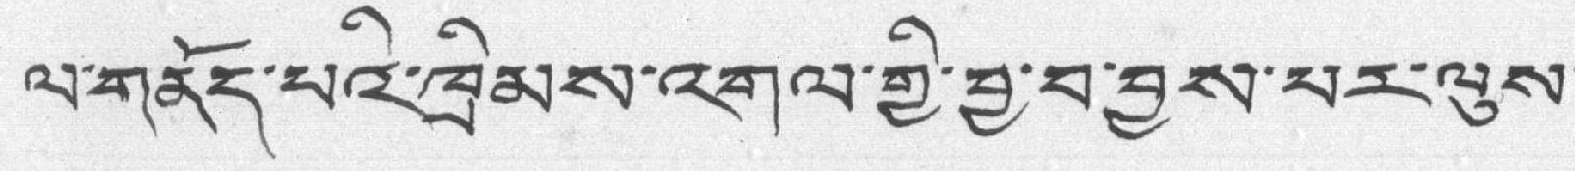ལ་གནོད་པའི་ཁྲིམས་འགལ་གྱི་བྱ་བ་བྱས་པར་ལུས་
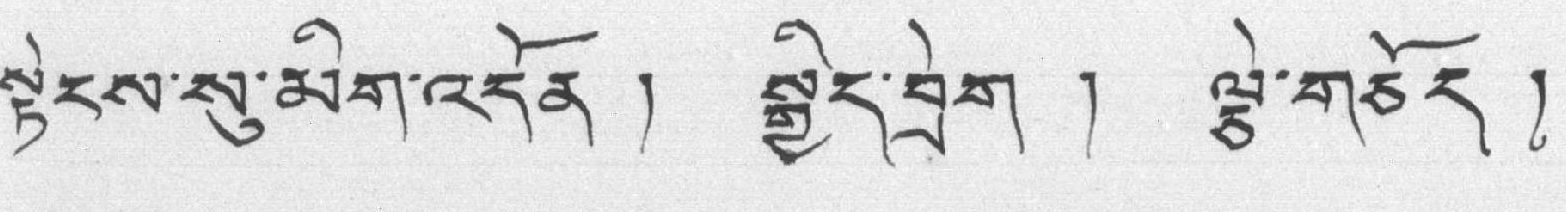སྟེངས་སུ་མིག་འདོན ། སྒྱིད་བྲེག ། ལྕེ་གཅོད།
